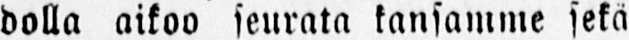dolla aikoo seurata kansamme sekä
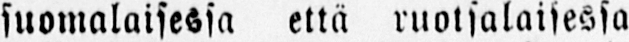suomalaisessa että ruotsalaisessa
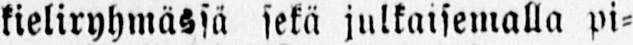kieliryhmässä sekä julkaisemalla pi-
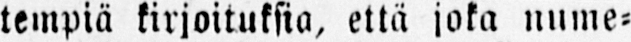tempiä kirjoituksia, että joka nume-
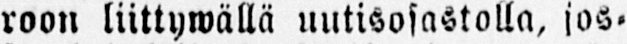roon liittywällä uutisosastolla, jos-
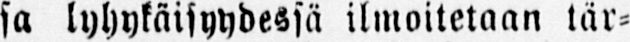sa lyhykäisyydessä ilmoitetaan tär-
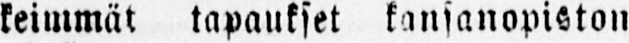keimmät tapaukset kansanopiston
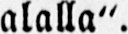alalla".
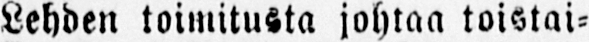Lehden toimitusta johtaa toistai-
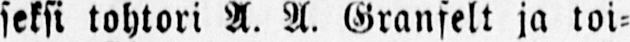seksi tohtori A. A. Giranfelt ja toi-
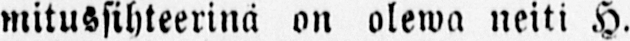mitussihteerinä on olewa neiti H.
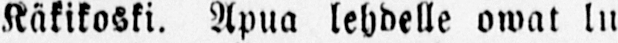Käkikoski. Apua lehdelle owat lu-
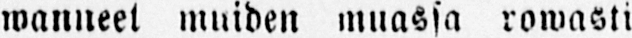wanneet muiden muassa rowasti
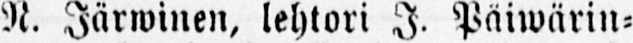N. Järwinen, lehtori I. Päiwärin-
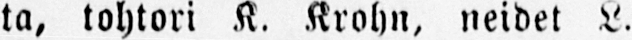ta, tohtori K. Krohn, neidet L.
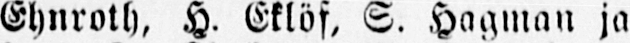Ehnroth, H. Eklöf, S. Hagman ja
